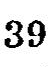39
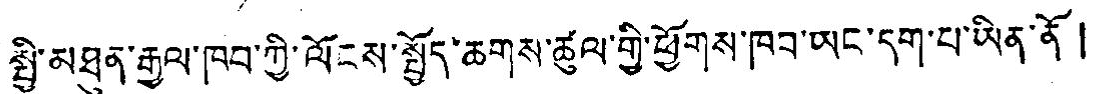སྤྱི་མཐུན་རྒྱལ་ཁབ་ཀྱི་ལོངས་སྤྱོད་ཆགས་ཚུལ་གྱི་ཕྱོགས་ཁབ་ཡང་དག་པ་ཡིན་ནོ།
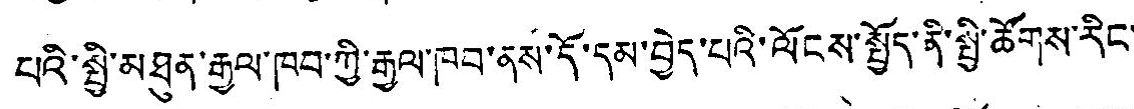པའི་སྤྱི་མཐུན་རྒྱལ་ཁབ་ཀྱི་རྒྱལ་ཁབ་ནས་དོ་དམ་བྱེད་པའི་ལོངས་སྤྱོད་ནི་སྤྱི་ཚོགས་རིང་
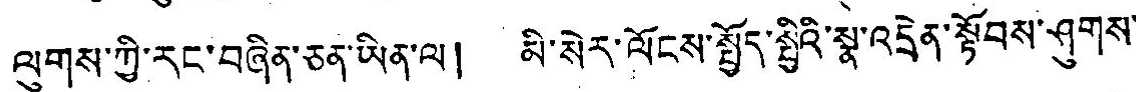ལུགས་ཀྱི་རང་བཞིན་ཅན་ཡིན་ལ། མི་སེར་ལོངས་སྤྱོད་སྤྱིའི་སྣ་འདྲེན་སྟོབས་ཤུགས་
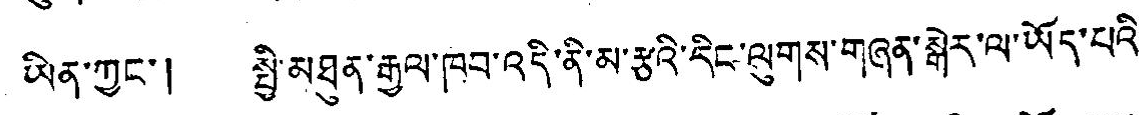ཡིན་ཀྱང་། སྤྱི་མཐུན་རྒྱལ་ཁབ་འདི་ནི་མ་རྩའི་རིང་ལུགས་གཞན་སྒེར་ལ་ཡོད་པའི་
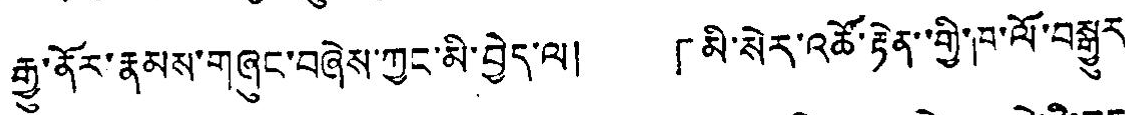རྒྱུ་ནོར་རྣམས་གཞུང་བཞེས་ཀྱང་མི་བྱེད་ལ། 「མི་སེར་འཚོ་རྟེན་གྱི་ཁ་ལོ་བསྒྱུར་
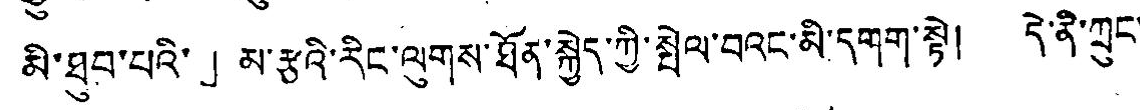མི་ཐུབ་པའི་」མ་རྩའི་རིང་ལུགས་ཐོན་སྐྱེད་ཀྱི་སྤེལ་བའང་མི་དགག་སྟེ། དེ་ནི་ཀྲུང་་
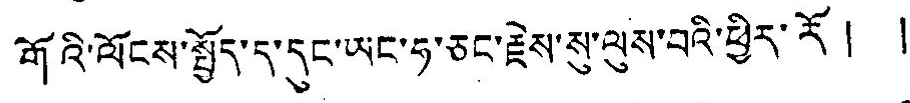གོའི་ལོངས་སྤྱོད་ད་དུང་ཡང་ཧ་ཅང་རྗེས་སུ་ལུས་བའི་ཕྱིར་རོ། །
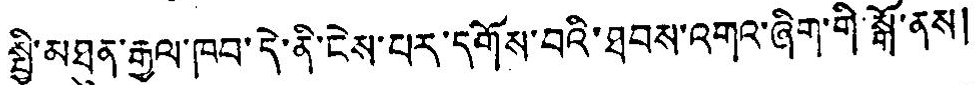སྤྱི་མཐུན་རྒྱལ་ཁབ་དེ་ནི་ངེས་པར་དགོས་བའི་ཐབས་འགའ་ཞིག་གི་སྒོ་ནས།
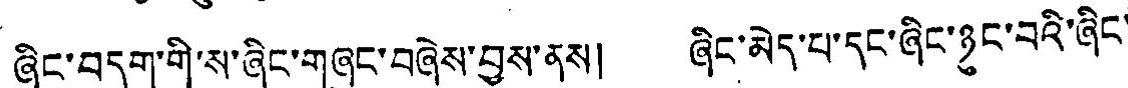ཞིང་བདག་གི་ས་ཞིང་གཞུང་བཞེས་བྱས་ནས། ཞིང་མེད་པ་དང་ཞིང་ཉུང་བའི་ཞིང་
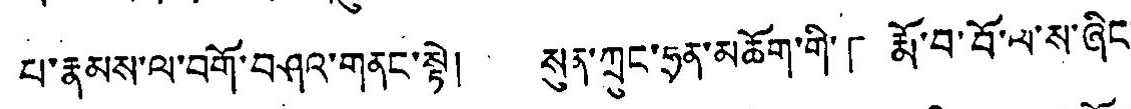པ་རྣམས་ལ་བགོ་བཤའ་གནང་སྟེ། སུན་ཀྲུང་ཧྲན་མཆོག་གི་「རྨོ་བ་བོ་ལ་ས་ཞིང་
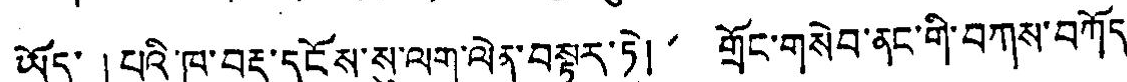ཡོད་」པའི་ཁ་བརྡ་དངོས་སུ་ལག་ལེན་བསྟར་ཏེ། གྲོང་གསེབ་ནང་གི་བཀས་བཀོད་
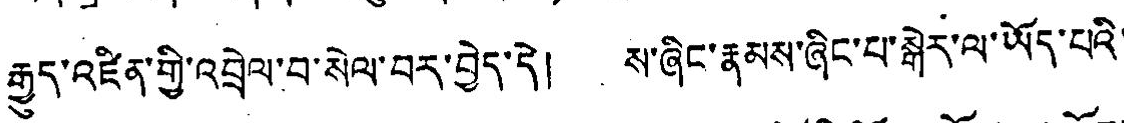རྒྱུད་འཛིན་གྱི་འབྲེལ་བ་སེལ་བར་བྱེད་དེ། ས་ཞིང་རྣམས་ཞིང་པ་སྒེར་ལ་ཡོད་པའི་
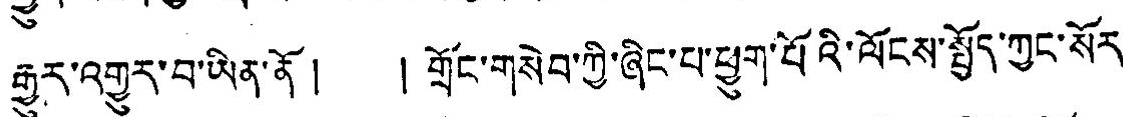རྒྱུར་འགྱུར་བ་ཡིན་ནོ ། ། གྲོང་གསེབ་ཀྱི་ཞིང་པ་ཕྱུག་པོའི་ལོངས་སྤྱོད་ཀྱང་སོར་
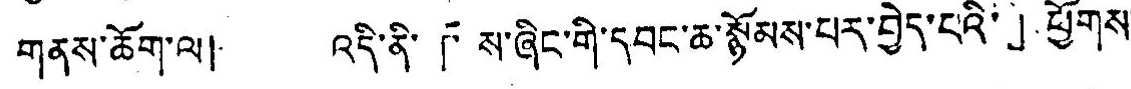གནས་ཆོག་ལ། འདི་ནི་「ས་ཞིང་གི་དབང་ཆ་སྙོམས་པར་བྱེད་པའི་」ཕྱོགས་
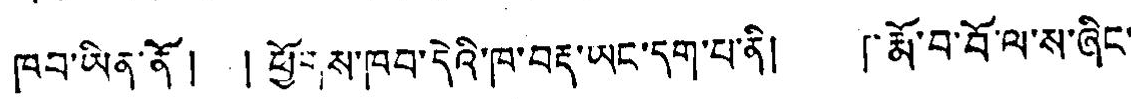ཁབ་ཡིན་ནོ། ། ཕྱོགས་ཁབ་དེའི་ཁ་བརྡ་ཡང་དག་པ་ནི། 「རྨོ་བ་བོ་ལ་ས་ཞིང་
